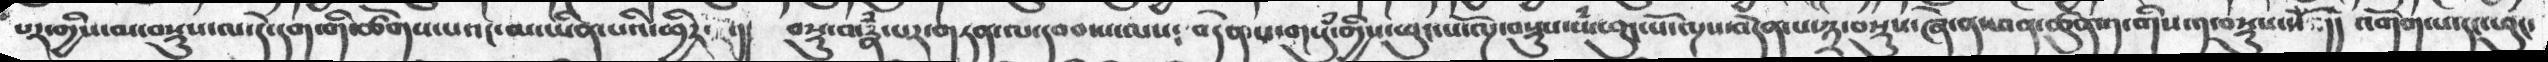པར་གྱིས་མ་བསྡུས་ལ་དེ་དག་གི་ཚོགས་པའང་མ་ཡིན་པའི་ཕྱིར་རོ་།།   བསྡུ་བ་རྣཾ་པར་གཏན་ལ་དབབ་པ་ལས༴  བདེན་པ་གསུཾ་གྱིས་ཕུང་པོ་ལོཌ་བསྡུས་སཾ་ཕུང་པོ་ལྔས་བདེན་པ་༣་བསྡུས་ཞེ་ན་ཕན་ཚུན་༡་གིས་༡་བསྡུས་སོ།།   འགོག་པ་དང་ཕུང་
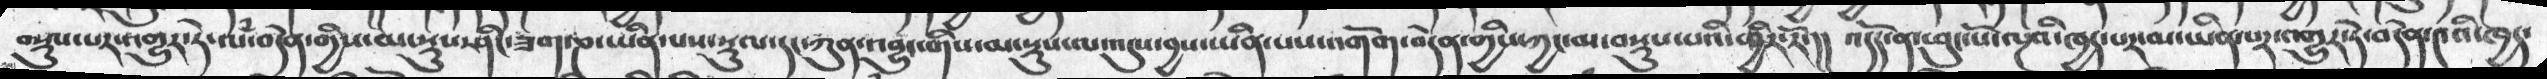བསྡུས་པར་འགྱུར་ཏེ་ལཾ་བདེན་གྱིས་མ་སྡུས་ཤིང་ཟག་ཎ་ཡིན་པས་སྡུལ་དང་ཀུན་འབྱུང་གིས་མ་སྡུས་ལ་འདུས་བྱས་ཡིན་པས་འགོག་བདེན་གྱིས་ཀྱང་མ་བསྡུས་པའི་ཕྱིར་རོ་།།   འདོད་ན་ཕུང་པོ་ལྔའི་ཁྱད་པར་མ་ཡིན་པར་འགྱུར་ཏེ་བདེན་༤འི་ཁྱད་
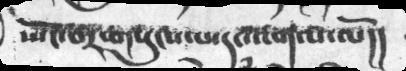སྤོང་བར་གསུངས་པ་དང་འགལ་ལོ།།
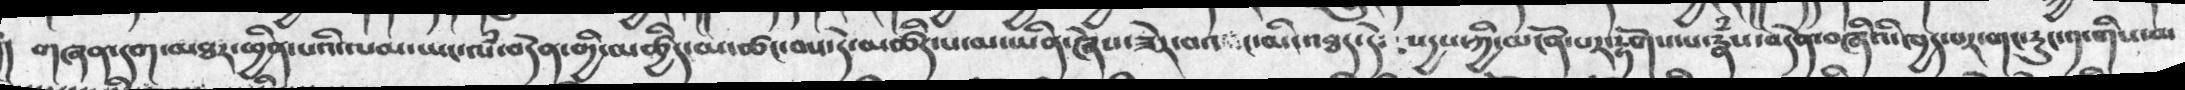།  གཞན་དག་མཐར་ཕྱིན་པའི་ལམ་ཡང་ལཾ་བདེན་གྱི་མཚིད་མ་ཚང་བས་དེ་མཚིད་པ་མ་ཡིན་ཞེས་ཟེར་བའ ང་མི་འཐད་དེ་ སདྱས་ཀྱི་མངོན་པར་རྟོགས་པ་རྣྃས་བདེན་བཞིའི་ཁྱད་པར་གང་རུང་༡་གིས་མ
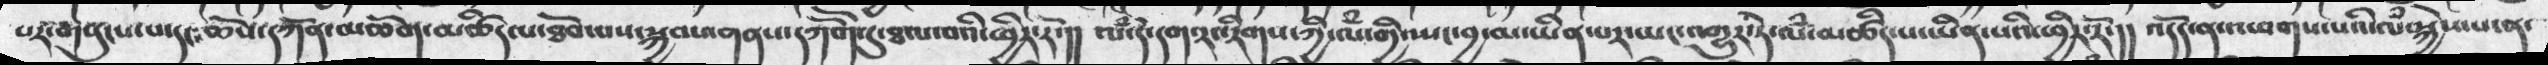པར་གསུངས་པ་དང་ཆོས་དཀོན་མཆོག་མཚིད་ལ་ཐོབ་པས་སྐྱབས་གནས་དཀོོག་དུ་ཐལ་བའི་ཕྱིར་རོ་།།    ལཾ་དེ་དག་རང་རིགས་ཀྱི་ལཾ་གྱི་སྤང་བྱ་མ་ཡིན་པར་ཡང་འགྱུར་ཏེ་ལཾ་མཚིད་པ་ཡིན་པའི་ཕྱིར་རོ་།།   ༷འདོད་ན་འཕགས་པའི་ལཾ་སྐྱེས་པ་ན་
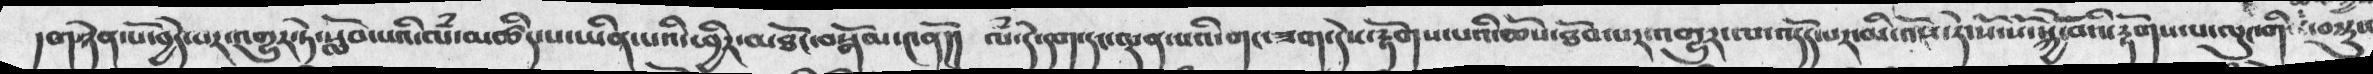།གཉེན་པོ་བྱེད་པར་འགྱུར་ཏེ་སློབ་པའི་ལཾ་མཚིད་པ་ཡིན་པའི་ཕྱིར་མཐོང་བསྒོམ་༤ནོ།།   ལཾ་དེ་དག་དང་ལྡན་པའི་གང་ཟག་དེས་རྟོགས་པའི་ཆོས་ཐོབ་པར་འགྱུར་ལ་འདོད་པར་མི་འོས་ཏེ་སོ་སོ་སྐྱེ་བོའི་རྟོགས་པ་ལུང་གི་བསྟུས
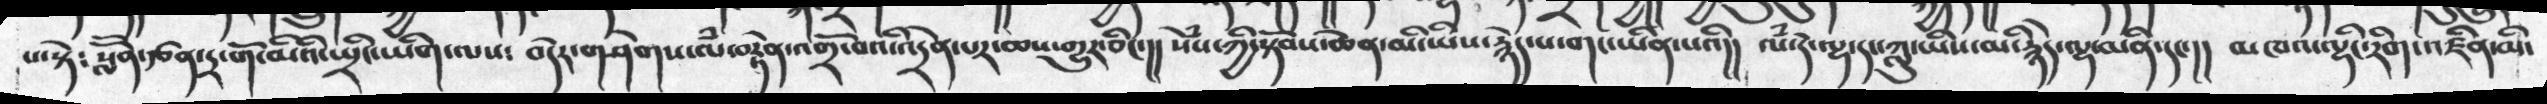པ་སྟེ༴  སློོན་རྩན་དྲ་གོ་མིའི་སྤྲིང་ཡིག་ལས༴   བདེར་གཤེགས་ལཾ་བརྟེན་འགྲོ་བའི་ལམ་འདྲེན་པར་ཆས་གྱུར་ཅིང་།། སེཾས་ཀྱི་སྟོབས་ཆེན་མི་ཡིས་རྙེད་པ་གང་ཡིན་པའི།།  ལཾ་དེ་ལྷ་དང་ཀླུ་ཡིས་མི་རྙེད་ལྷ་མིན་དང་།། མཁའ་ལྡིང་རིག་འཛིན་མི་
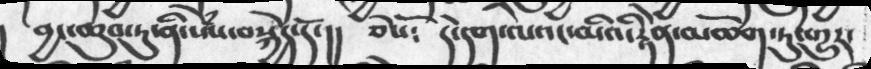བྱང་ཆུབ་ཏུ་ནི་སེཾས་བསྐྱེད་དོ་།།   ཅེསོ༴    དེ་དག་ལའང་མའི་རྟིེན་མཆོག་ཏུ་གྱུར་
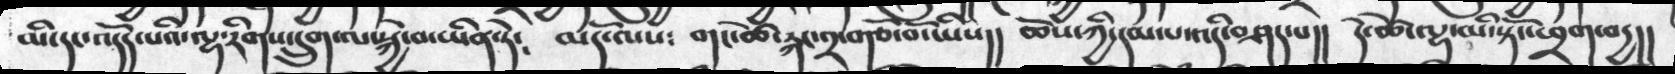མི་དང་འདོད་པའི་ལྷ་རིགས་དྲུག་ལ་སྐྱེ་བ་ཡིན་ཏེ༴   མདོ་ལས༴  གང་ཚེ་རྐང་༢་གཙོ་བོ་ཡིས།།  ཆོས་ཀྱི་དམ་པ་འདི་བཤད་པ།།   དེ་ཚེ་ལྷ་མི་སྟོང་ཕྲག་བདྱ།།
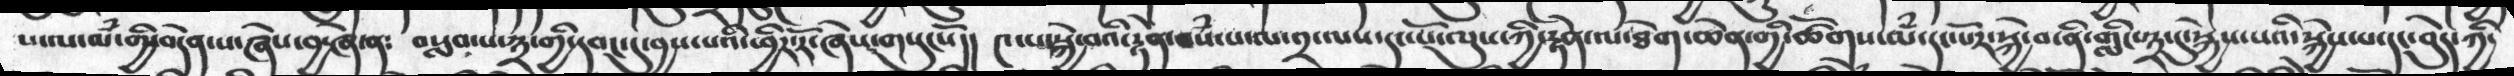པ་ལ་མཾ་གྱི་བདེན་པ་ཞེས་བྱ་ཞེ་ན༴  བསླབ་པ་༣་གྱི་དབང་དུ་བྱས་པའི་ཕྱིར་རོ་ཞེས་གསུངསོ།།   ༤་པ་སྐྱེ་བའི་རྟེན་བསཾ་པ་ལ་༢་ལས་དང་པོ་ལུས་ཀྱི་རྟེན་ལ་ཐེག་ཆེན་གྱི་ཚོགས་མཾ་དང་པོར་སྐྱེ་བ་ནི་གླིང་༣་དུ་སྐྱེས་པའི་སྐྱེས་པ་དང་བེུད་ཀྱི་
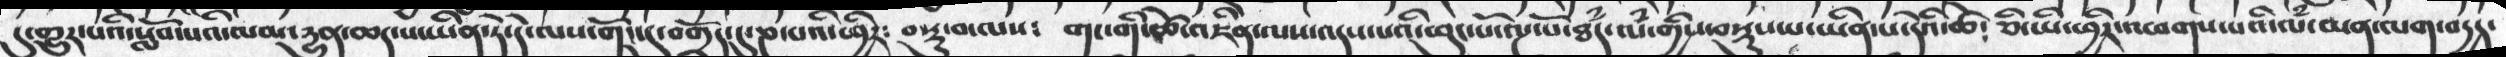དུ་གྱུར་པའི་སློབ་པའི་ལམ་དྱུན་ཆད་པ་ཡིན་ཏེ་དེ་ལས་གོང་དུ་བགྲོད་དུ་ཎ་པའི་ཕྱིར༴   བསྡུ་བ་ལས༴   གང་གི་རྩེ་འཛིན་ལས་འདས་པའི་ཕུང་པོ་ལྔ་པོ་ཐཾད་ལཾ་གྱིས་བསྡུས་པ་ཡིན་པ་དེའི་ཚེ༴ ཅི་ཡི་ཕྱིར་འཕགས་པའི་ལཾ་ཡན་ལག་བདྱད་
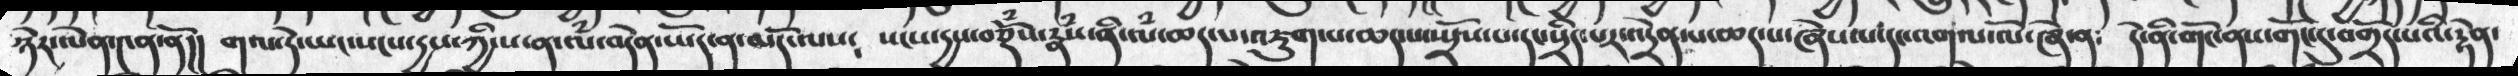ཉེར་ལེན་༤ན་ནོ།།  གལ་ཏེ་ཡང་སངས་དྱས་ཀྱི་ས་ན་ལཾ་བདེན་ཡོད་ན་མདོ་ལས༴  སངས་དྱས་བཅྡོྃྃས་རྣྃས་ནི་ལཾ་ཆད་པ་འཇུག་པ་ཆད་པ་སྤྲོས་པ་དང་སྲིད་པར་འདྲེན་པ་ཆད་པ་ཞེས་པ་དང་འགལ་ལོ་ཞེ་ན༴   དེ་ནི་གོང་ནས་གོང་དུ་བགྲོད་པའི་རྟེན་
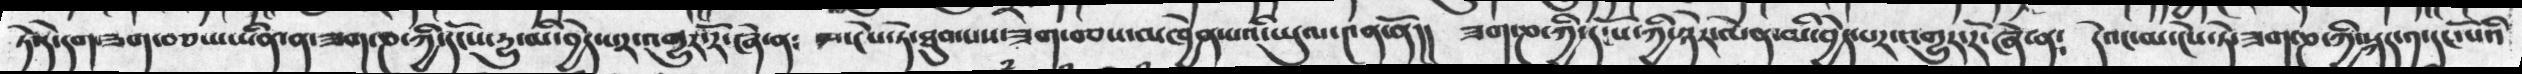ཏེ་དེ་དག་ཟག་བཅས་ཡིན་ན་ཟག་ཎ་ཀྱི་དངོས་དྱུ་མི་བྱེད་པར་འགྱུར་རོ་ཞེ་ན༴   མ་ངེས་ཏེ་ཐུབ་པས་ཟག་བཅས་མཁྱེན་པའི་ཡུལ་༤ན་ནོ།།  ཟག་ཎ་ཀྱི་དངོས་ཀྱི་ཉེར་ལེན་མི་བྱེད་པར་འགྱུར་རོ་ཞེ་ན༴   དེའང་མ་ངེས་ཏེ་ཟག་ཎ་ཀྱི་སྐད་༡་དང་པོའི
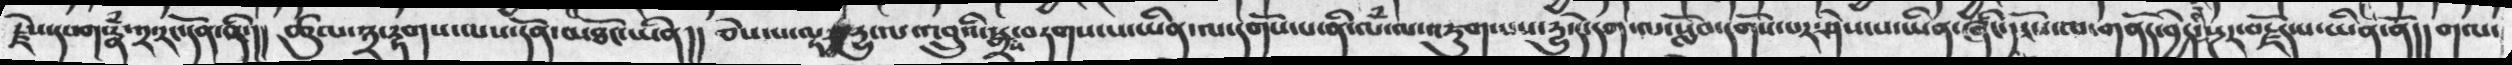རྗེས་དཔག་རྣཾ་༢་རང་དོན་ནི་།།   ཚུལ་༣་རྟགས་ལས་དོན་མཐོང་ཡིན།།  ཅེས་པ་ལྟར་རྱུ་ལ་འབྲུའི་སྒྲས་བཏགས་པ་ཡིན་ལ་དགོས་པ་ནི་ལཾ་ལ་འཇུག་པ་རྱུ་དེ་དག་ལ་སློབ་དགོས་པར་ཤེས་པ་ཡིན་ཞིང་དངོས་ལ་གནོད་བྱེད་སྔར་བརྗོད་པ་ཡིན་ནོ།།  གལ་
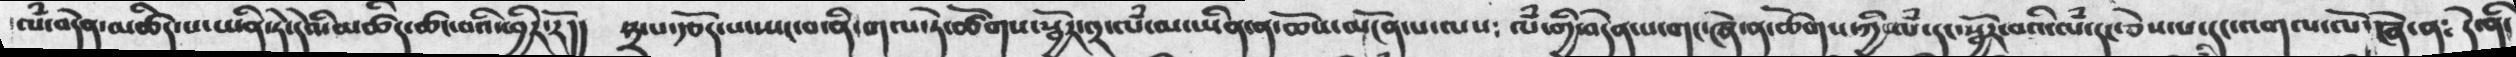ལཾ་བདེན་མཚིད་པ་ཡིན་ཏེ་དེའི་མཚིད་ཚང་བའི་ཕྱིར་རོ།།    ༣་པ་རྩོད་པ་སྤང་བ་ནི་གལ་ཏེ་ཚོགས་སྦྱོར་༢་ལཾ་མ་ཡིན་ན་ཆོས་མངོན་པ་ལས༴  ལཾ་གྱི་བདེན་པ་གང་ཞེ་ན་ཚོགས་ཀྱི་ལྃ་དང་སྦྱོར་བའི་ལཾ་དང་ཅེས་པ་དང་འགལ་ལོ་ཞེ་ན༴ དེ་ནི་
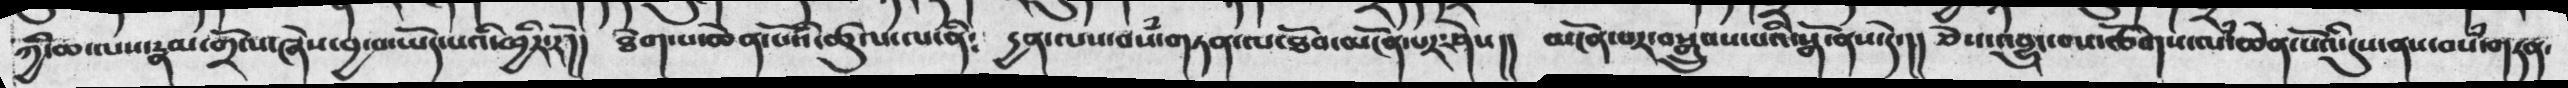ཀྱི་ཆ་ལས་རྣམ་གྲོལ་ཞེས་བྱ་བ་ཡོད་པའི་ཕྱིར་རོ།།   ཐེག་པ་ཆེན་པོའི་ཚུལ་ལ་ནི༴  དྱན་ལས་བསཾ་གཏན་ལ་ཐོས་མངོན་པར་ཤེས།།  མངོན་པར་བསྒྲུབས་པའི་སྒོ་ནས་དེ་།།  ཅེས་འབྱུང་བས་ཚོགས་ལཾ་ཆེན་པོའི་དུས་ནས་བསཾ་གཏན་
